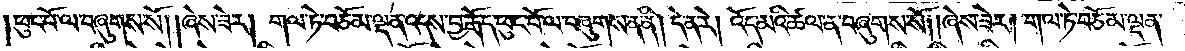ཕུང་པོ་ལ་བཞུགས་སོ། །ཞེས་ཟེར། གལ་ཏེ་བཅོམ་ལྡན་འདས་བྱ་རྒོད་ཕུང་པོ་ལ་བཞུགས་ན་ནི། དེ་ན་རེ། འོད་མའི་ཚལ་ན་བཞུགས་སོ། །ཞེས་ཟེར། གལ་ཏེ་བཅོམ་ལྡན་
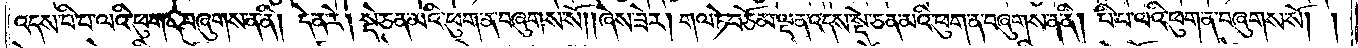འདས་པི་པ་ལའི་ཕུག་ན་བཞུགས་ན་ནི། དེ་ན་རེ། སྡེ་ཅན་མའི་ཕུག་ན་བཞུགས་སོ། །ཞེས་ཟེར། གལ་ཏེ་བཅོམ་ལྡན་འདས་སྡེ་ཅན་མའི་ཕུག་ན་བཞུགས་ན་ནི། པི་པ་ལའི་ཕུག་ན་བཞུགས་སོ། །
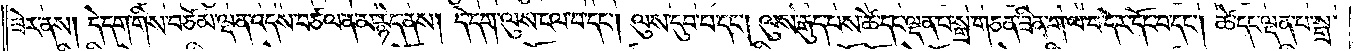ཟེར་ནས། དེ་དག་གིས་བཅོམ་ལྡན་འདས་བཙལ་ན་མ་རྙེད་ནས། དེ་དག་ལུས་ངལ་བ་དང༌། ལུས་དུབ་པ་དང༌། ལུས་རྒུད་པས་ཚེ་དང་ལྡན་པ་སྒྲ་གཅན་ཟིན་ག་ལ་བ་དེར་དོང་བ་དང༌། ཚེ་དང་ལྡན་པ་སྒྲ་
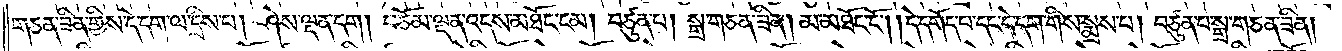གཅན་ཟིན་གྱིས་དེ་དག་ལ་དྲིས་པ། ཤེས་ལྡན་དག། བཅོམ་ལྡན་འདས་མཐོང་ངམ། བཙུན་པ། སྒྲ་གཅན་ཟིན། མ་མཐོང་ངོ༌། །དེ་དགོད་པ་དང་དེ་དག་གིས་སྨྲས་པ། བཙུན་པ་སྒྲ་གཅན་ཟིན།
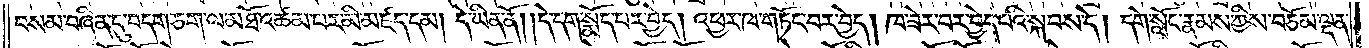བསམ་བཞིན་དུ་བདག་ཅག་ལ་མཐོ་འཚམ་པར་མི་མཛད་དམ། དེ་ཡིན་ནོ། །དེ་དག་སྨོད་པར་བྱེད། འཕྱར་ཁ་གཏོང་བར་བྱེད། ཁ་ཟེར་བར་བྱེད་པའི་སྐབས་དེ། དགེ་སློང་རྣམས་ཀྱིས་བཅོམ་ལྡན་
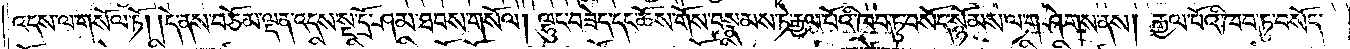འདས་ལ་གསོལ་ཏོ། །དེ་ནས་བཅོམ་ལྡན་འདས་སྔ་དྲོ་ཤམ་ཐབས་གསོལ། ལྷུང་བཟེད་དང་ཆོས་གོས་བསྣམས་ཏེ་རྒྱལ་པོའི་ཁབ་ཏུ་བསོད་སྙོམས་ལ་གཤེགས་ནས། རྒྱལ་པོའི་ཁབ་ཏུ་བསོད་
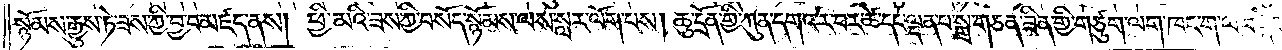སྙོམས་རྒྱུས་ཏེ་ཟས་ཀྱི་བྱ་བ་མཛད་ནས། ཕྱི་མའི་ཟས་ཀྱི་བསོད་སྙོམས་ལས་སླར་ལོག་པས། ཆུ་དྲོན་གྱི་ཀུན་དགའ་ར་བར་ཚེ་དང་ལྡན་པ་སྒྲ་གཅན་ཟིན་གྱི་གཙུག་ལག་ཁང་ག་ལ་བ་དེར་གཤེགས་
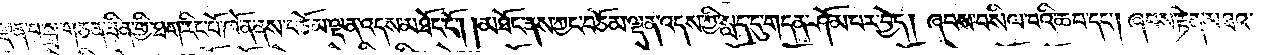སོ༑ ༑ཚེ་དང་ལྡན་པ་སྒྲ་གཅན་ཟིན་གྱི་ཐག་རིང་པོ་ཁོ་ན་ནས་བཅོམ་ལྡན་འདས་མཐོང་ངོ༌། །མཐོང་ནས་ཀྱང་བཅོམ་ལྡན་འདས་ཀྱི་སླད་དུ་གདན་ཤོམ་པར་བྱེད། ཞབས་བསིལ་བའི་ཆབ་དང༌། ཞབས་རྟེན་མཐའ་
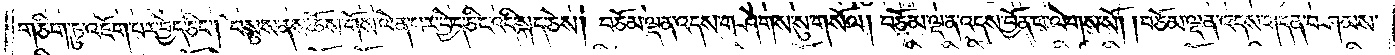གཅིག་ཏུ་འཇོག་པར་བྱེད་ཅིང༌། བསུས་ནས་ཆོས་གོས་ལེན་པར་བྱེད་ཅིང་འདི་སྐད་ཅེས། བཅོམ་ལྡན་འདས་གཤེགས་སུ་གསོལ། བཅོམ་ལྡན་འདས་བྱོན་པ་ལེགས་སོ། །བཅོམ་ལྡན་འདས་གདན་བཤམས་
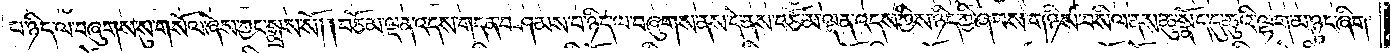པ་ཉིད་ལ་བཞུགས་སུ་གསོལ་ཞེས་ཀྱང་སྨྲས་སོ། །བཅོམ་ལྡན་འདས་གདན་བཤམས་པ་ཉིད་ལ་བཞུགས་ནས་དེ་ནས་བཅོམ་ལྡན་འདས་ཀྱིས་ཉིད་ཀྱི་ཞབས་གཉིས་བསིལ་ནས་ཆུ་སྣོད་དུ་ཆུའི་ལྷག་མ་ཉུང་ཞིག་
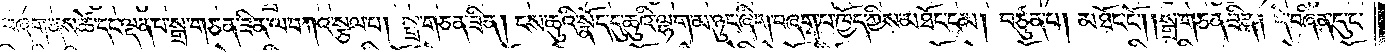བཞག་ནས་ཚེ་དང་ལྡན་པ་སྒྲ་གཅན་ཟིན་ལ་བཀའ་སྩལ་པ། སྒྲ་གཅན་ཟིན། ངས་ཆུའི་སྣོད་དུ་ཆུའི་ལྷག་མ་ཉུང་ཞིག་བཞག་པ་ཁྱོད་ཀྱིས་མཐོང་ངམ། བཙུན་པ། མཐོང་ངོ༌། །སྒྲ་གཅན་ཟིན། དེ་བཞིན་དུང་
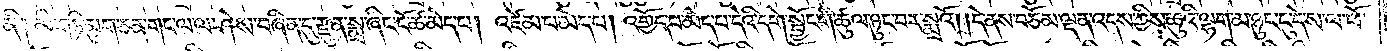ནི། མི་གཏི་མུག་ཅན་གང་ལ་ལ་ཤེས་བཞིན་དུ་རྫུན་སྨྲ་ཞིང་ངོ་ཚ་མེད་པ། འཛེམ་པ་མེད་པ། འགྱོད་པ་མེད་པ་དེའི་དགེ་སྦྱོང་གི་ཚུལ་ཉུང་བར་སྨྲའོ། །དེ་ནས་བཅོམ་ལྡན་འདས་ཀྱིས་ཆུའི་ལྷག་མ་ཉུང་ངུ་དེས་ལ་ཕོ་
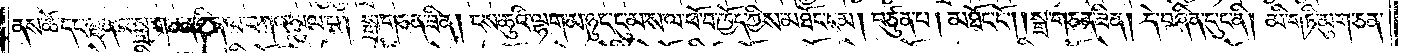ནས་ཚེ་དང་ལྡན་པ་སྒྲ་གཅན་ཟིན་ལ་བཀའ་སྩལ་པ། སྒྲ་གཅན་ཟིན་ལ་བཀའ་སྩལ་པ།སྒྲ་གཅམ་ཟིན། ངས་ཆུའི་ལྷག་མ་ཉུང་དུ་མ་ས་ལ་ཕོ་བ་ཁྱོད་ཀྱིས་མཐོང་ངམ། བཙུན་པ། མཐོང་ངོ༌། །སྒྲ་གཅན་ཟིན། དེ་བཞིན་དུ་ང་ནི། མི་གཏི་མུག་ཅན་
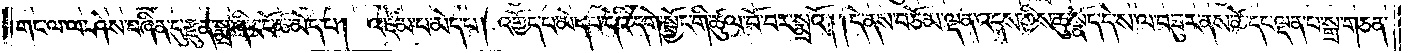གང་ལ་ལ་ཤེས་བཞིན་དུ་རྫུན་སྨྲ་ཞིང་ངོ་ཚ་མེད་པ། འཛེམ་པ་མེད་པ། འགྱོད་པ་མེད་པ་དེའི་དགེ་སྦྱོང་གི་ཚུལ་བོ་བར་སྨྲའོ། །དེ་ནས་བཅོམ་ལྡན་འདས་ཀྱིས་ཆུ་སྣོད་དེ་ས་ལ་བཟུར་ནས་ཚེ་དང་ལྡན་པ་སྒྲ་གཅན་
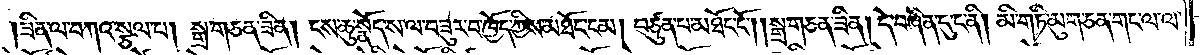ཟིན་ལ་བཀའ་སྩལ་པ། སྒྲ་གཅན་ཟིན། ངས་ཆུ་སྣོད་ས་ལ་བཟུར་བ་ཁྱོད་ཀྱིས་མཐོང་ངམ། བཙུན་པ་མཐོང་ངོ༌། །སྒྲ་གཅན་ཟིན། དེ་བཞིན་དུ་ང་ནི། མི་གཏི་མུག་ཅན་གང་ལ་ལ་
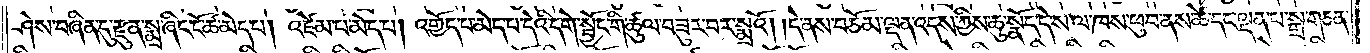ཤེས་བཞིན་དུ་རྫུན་སྨྲ་ཞིང་ངོ་ཚ་མེད་པ། འཛེམ་པ་མེད་པ། འགྱོད་པ་མེད་པ་དེའི་དགེ་སྦྱོང་གི་ཚུལ་བཟུར་བར་སྨྲའོ། །དེ་ནས་བཅོམ་ལྡན་འདས་ཀྱིས་ཆུ་སྣོད་དེ་ས་ལ་ཁས་ཕུབ་ནས་ཚེ་དང་ལྡན་པ་སྒྲ་གཅན་
